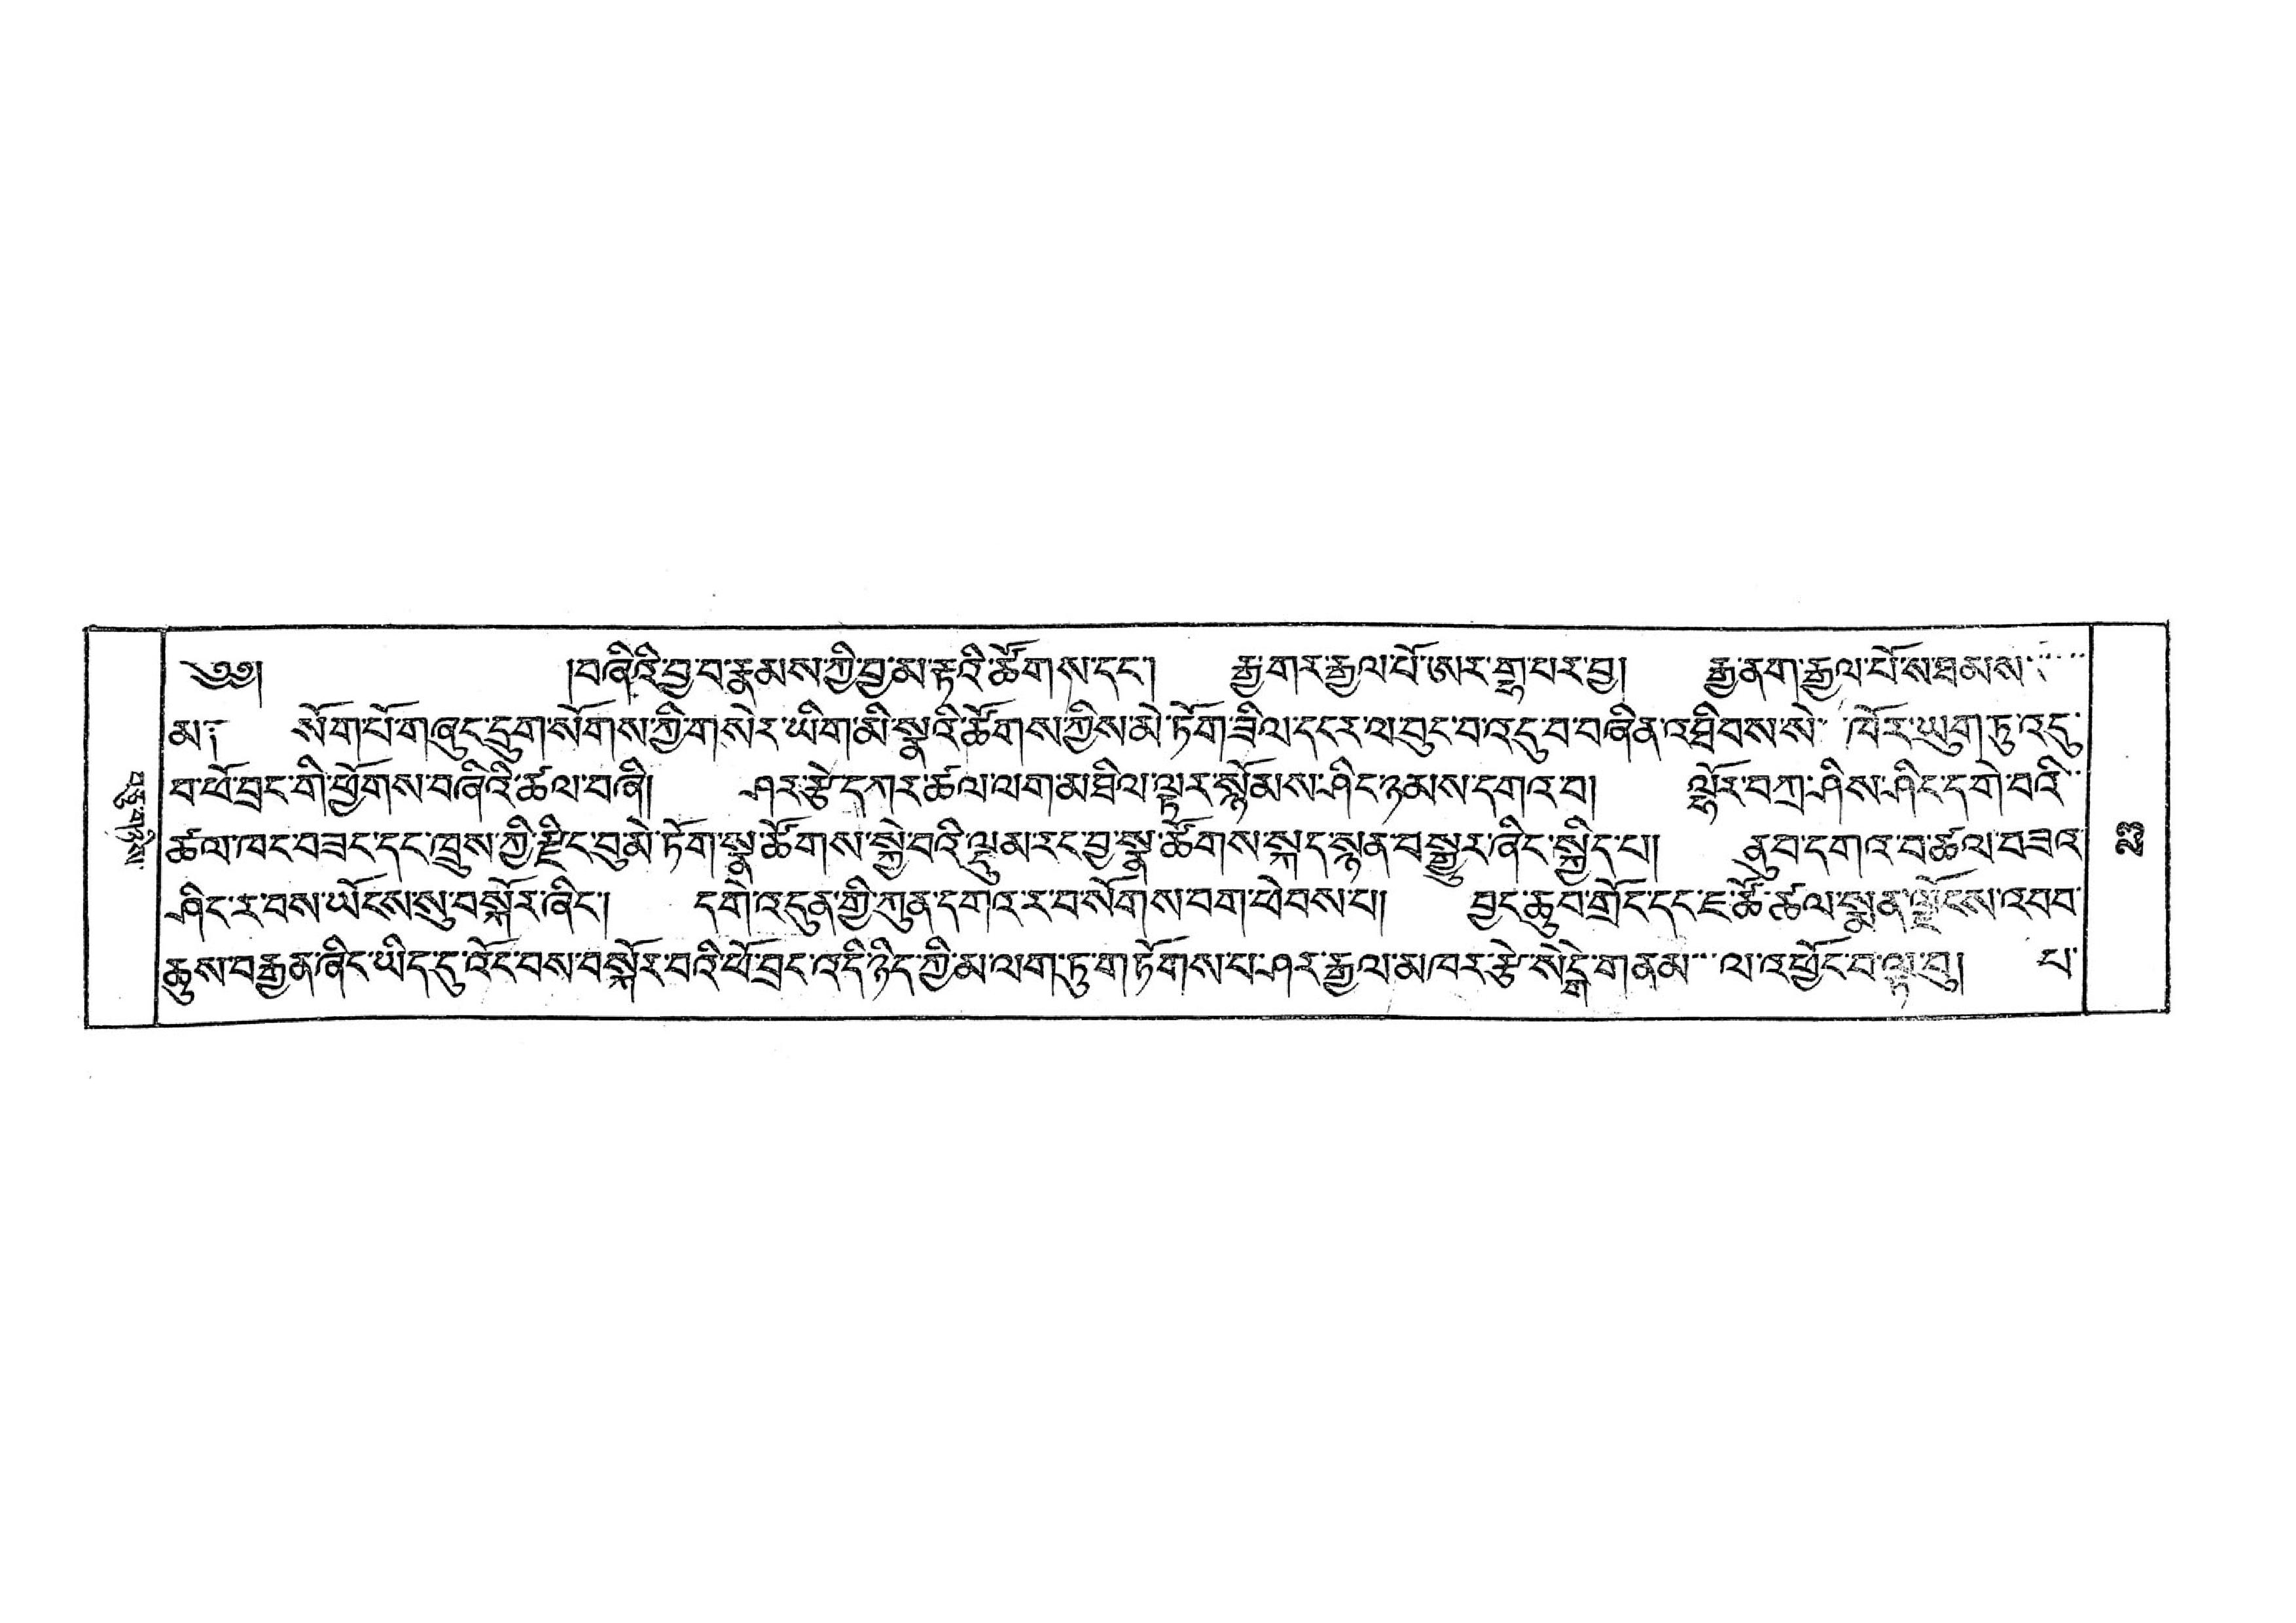བཅུ་གཉིས་
༄༅། བཞིའི་བྱ་བ་རྣམས་ཀྱི་བྱ་མ་རྟའི་ཚོགས་དང་། རྒྱ་གར་རྒྱལ་པོ་ཨར་གྷ་པར་བྱ། རྒྱ་ནག་རྒྱལ་པོས་སཐམས་་་་
མ༑ སོག་པོ་གཞུང་དྲུག་སོགས་ཀྱི་གསེར་ཡིག་མི་སྣའི་ཚོགས་ཀྱིས་མེ་ཏོག་ཟིལ་དངར་ལ་བུང་བ་འདུ་བ་བཞིན་འཐིབས་སེ་ ་འཁོར་ཡུག་ཏུ་འདུ་
བ་ཕོ་བྲང་གི་ཕྱོགས་བཞིའི་ཚལ་བཞི། ཤར་རྩེ་དཀར་ཚལ་ལག་མཐིལ་ལྟར་སྙོམས་ཤིང་ཉམས་དགའ་བ། ལྷོར་བཀྲ་ཤིས་ཤིང་དགེ་བའི་་
ཚལ་ཁང་བཟང་དང་ཁྲུས་ཀྱི་རྫིང་བུ་མེ་ཏོག་སྣ་ཚོགས་སྐྱེ་བའི་ལྡུམ་རང་བྱ་སྣ་ཚོགས་སྐད་སྙན་བསྒྱུར་ཞིང་སྐྱིད་པ། ནུབ་དགའ་བ་ཚལ་བཟའ་
ཤིད་ར་བས་ཡོངས་སུ་བསྐོར་ཞིང་། དགེ་འདུན་གྱི་ཀུན་དགའ་ར་བ་སོགས་བག་ཕེབས་པ། བྱད་ཆུབ་གྲོང་དང་ཇ་ཚོ་ཚུལ་སྨན་ལྗོངས་འབབ་
ཆུས་བརྒྱན་ཞིང་ཡིད་དུ་འོང་བས་བསྐོར་བའི་ཕོ་བྲང་འདི་ཉིད་ཀྱི་མ་ལག་ཏུ་གཏོགས་པ་ཤར་རྒྱལ་མཁར་རྩེ་སེངྒེ་གནམ་་་ལ་འཕྱོང་བ་ལྟ་བུ། པ་
